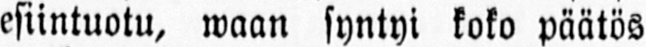esiintuotu, waan syntyi koko päätös
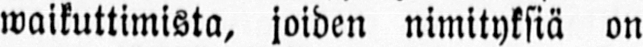waikuttimista, joiden nimityksiä on
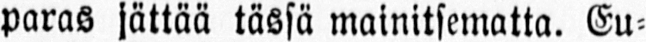paras jättää tässä mainitsematta. Eu-
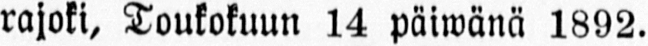rajoki, Toukokuun 14 päiwänä 1892.
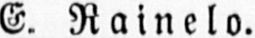E. Rainelo.
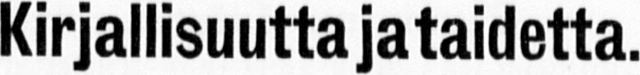Kirjallisuutta ja taidetta.
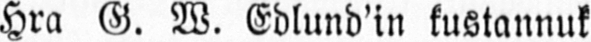Hra G. M. Edlund’in kustannuk-
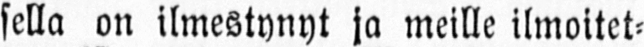sella on ilmestynyt ja meille ilmoitet-
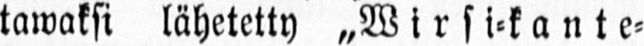tawaksi lähetetty „Wirsi-kante-
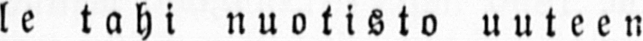le tahi nuotisto uuteen
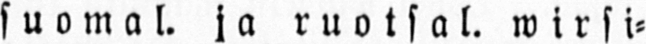suomal. ja ruotsal. wirsi-
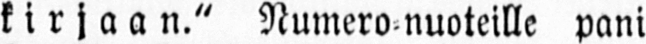kirjaan." Numero-nuoteille pani
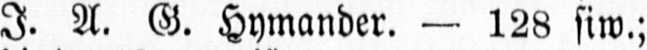I. A. G. Hymander. — 128 siw.;
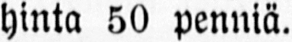hinta 50 penniä.
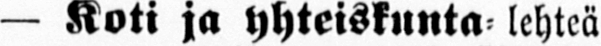— Koti ja yhteiskunta- lehteä
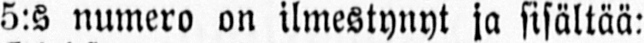5:s numero on ilmestynyt ja sisältää:
